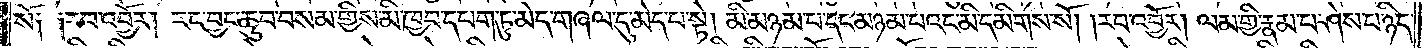སོ། །རབ་འབྱོར། རང་བྱང་ཆུབ་བསམ་གྱིས་མི་ཁྱབ་དཔག་ཏུ་མེད་གཞལ་དུ་མེད་པ་སྟེ། མི་མཉམ་པ་དང་མཉམ་པའང་མི་དམིགས་སོ། །རབ་འབྱོར། ལམ་གྱི་རྣམ་པ་ཤེས་པ་ཉིད་
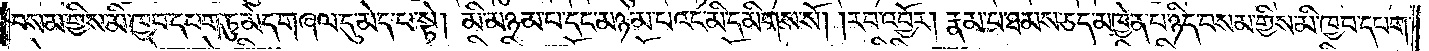བསམ་གྱིས་མི་ཁྱབ་དཔག་ཏུ་མེད་གཞལ་དུ་མེད་པ་སྟེ། མི་མཉམ་པ་དང་མཉམ་པའང་མི་དམིགས་སོ། །རབ་འབྱོར། རྣམ་པ་ཐམས་ཅད་མཁྱེན་པ་ཉིད་བསམ་གྱིས་མི་ཁྱབ་དཔག་
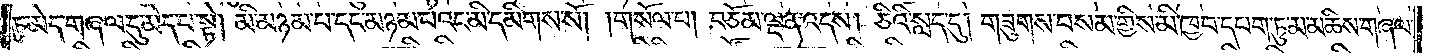ཏུ་མེད་གཞལ་དུ་མེད་པ་སྟེ། མི་མཉམ་པ་དང་མཉམ་པའང་མི་དམིགས་སོ། །གསོལ་པ། བཅོམ་ལྡན་འདས། ཅིའི་སླད་དུ། གཟུགས་བསམ་གྱིས་མི་ཁྱབ་དཔག་ཏུ་མ་མཆིས་གཞལ་
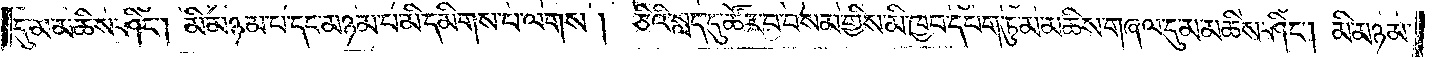དུ་མ་མཆིས་ཤིང༌། མི་མཉམ་པ་དང་མཉམ་པ་མི་དམིགས་པ་ལགས། ཅིའི་སླད་དུ་ཚོར་བ་བསམ་གྱིས་མི་ཁྱབ་དཔག་ཏུ་མ་མཆིས་གཞལ་དུ་མ་མཆིས་ཤིང༌། མི་མཉམ་
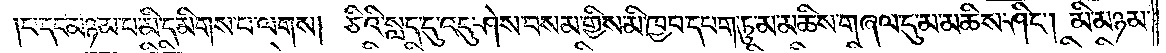པ་དང་མཉམ་པ་མི་དམིགས་པ་ལགས། ཅིའི་སླད་དུ་འདུ་ཤེས་བསམ་གྱིས་མི་ཁྱབ་དཔག་ཏུ་མ་མཆིས་གཞལ་དུ་མ་མཆིས་ཤིང༌། མི་མཉམ་
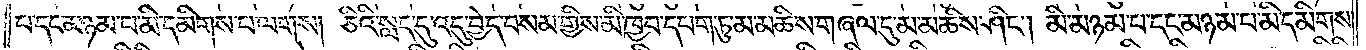པ་དང་མཉམ་པ་མི་དམིགས་པ་ལགས། ཅིའི་སླད་དུ་འདུ་བྱེད་བསམ་གྱིས་མི་ཁྱབ་དཔག་ཏུ་མ་མཆིས་གཞལ་དུ་མ་མཆིས་ཤིང༌། མི་མཉམ་པ་དང་མཉམ་པ་མི་དམིགས་
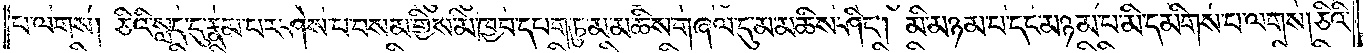པ་ལགས། ཅིའི་སླད་དུ་རྣམ་པར་ཤེས་པ་བསམ་གྱིས་མི་ཁྱབ་དཔག་ཏུ་མ་མཆིས་གཞལ་དུ་མ་མཆིས་ཤིང༌། མི་མཉམ་པ་དང་མཉམ་པ་མི་དམིགས་པ་ལགས། ཅིའི་
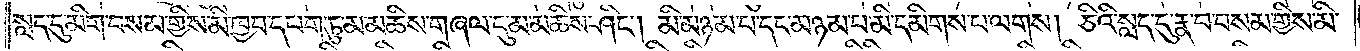སླད་དུ་མིག་བསམ་གྱིས་མི་ཁྱབ་དཔག་ཏུ་མ་མཆིས་གཞལ་དུ་མ་མཆིས་ཤིང༌། མི་མཉམ་པ་དང་མཉམ་པ་མི་དམིགས་པ་ལགས། ཅིའི་སླད་དུ་རྣ་བ་བསམ་གྱིས་མི་
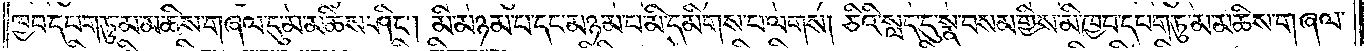ཁྱབ་དཔག་ཏུ་མ་མཆིས་གཞལ་དུ་མ་མཆིས་ཤིང༌། མི་མཉམ་པ་དང་མཉམ་པ་མི་དམིགས་པ་ལགས། ཅིའི་སླད་དུ་སྣ་བསམ་གྱིས་མི་ཁྱབ་དཔག་ཏུ་མ་མཆིས་གཞལ་
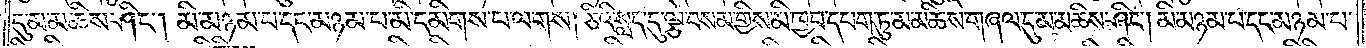དུ་མ་མཆིས་ཤིང༌། མི་མཉམ་པ་དང་མཉམ་པ་མི་དམིགས་པ་ལགས། ཅིའི་སླད་དུ་ལྕེ་བསམ་གྱིས་མི་ཁྱབ་དཔག་ཏུ་མ་མཆིས་གཞལ་དུ་མ་མཆིས་ཤིང༌། མི་མཉམ་པ་དང་མཉམ་པ་
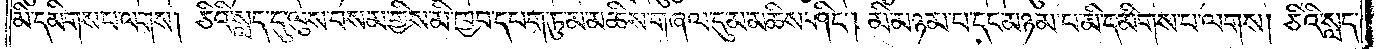མི་དམིགས་པ་ལགས། ཅིའི་སླད་དུ་ལུས་བསམ་གྱིས་མི་ཁྱབ་དཔག་ཏུ་མ་མཆིས་གཞལ་དུ་མ་མཆིས་ཤིང༌། མི་མཉམ་པ་དང་མཉམ་པ་མི་དམིགས་པ་ལགས། ཅིའི་སླད་
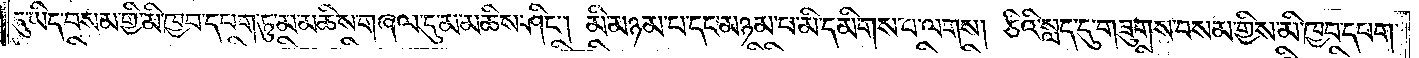དུ་ཡིད་བསམ་གྱི་མི་ཁྱབ་དཔག་ཏུ་མ་མཆིས་གཞལ་དུ་མ་མཆིས་ཤིང༌། མི་མཉམ་པ་དང་མཉམ་པ་མི་དམིགས་པ་ལགས། ཅིའི་སླད་དུ་གཟུགས་བསམ་གྱིས་མི་ཁྱབ་དཔག་
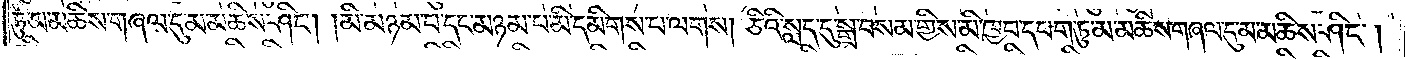ཏུ་མ་མཆིས་གཞལ་དུ་མ་མཆིས་ཤིང༌། མི་མཉམ་པ་དང་མཉམ་པ་མི་དམིགས་པ་ལགས། ཅིའི་སླད་དུ་སྒྲ་བསམ་གྱིས་མི་ཁྱབ་དཔག་ཏུ་མ་མཆིས་གཞལ་དུ་མ་མཆིས་ཤིང༌།
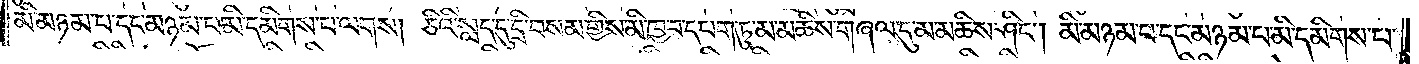མི་མཉམ་པ་དང་མཉམ་པ་མི་དམིགས་པ་ལགས། ཅིའི་སླད་དུ་དྲི་བསམ་གྱིས་མི་ཁྱབ་དཔག་ཏུ་མ་མཆིས་གཞལ་དུ་མ་མཆིས་ཤིང༌། མི་མཉམ་པ་དང་མཉམ་པ་མི་དམིགས་པ་
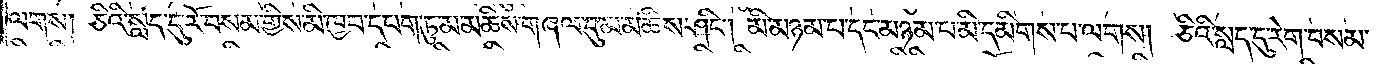ལགས། ཅིའི་སླད་དུ་རོ་བསམ་གྱིས་མི་ཁྱབ་དཔག་ཏུ་མ་མཆིས་གཞལ་དུ་མ་མཆིས་ཤིང༌། མི་མཉམ་པ་དང་མཉམ་པ་མི་དམིགས་པ་ལགས། ཅིའི་སླད་དུ་རེག་བསམ་
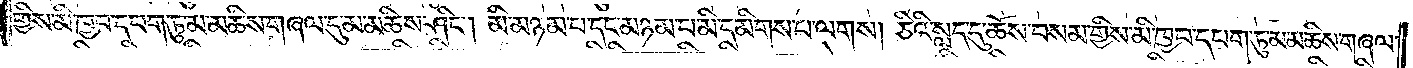གྱིས་མི་ཁྱབ་དཔག་ཏུ་མ་མཆིས་གཞལ་དུ་མ་མཆིས་ཤིང༌། མི་མཉམ་པ་དང་མཉམ་པ་མི་དམིགས་པ་ལགས། ཅིའི་སླད་དུ་ཆོས་བསམ་གྱིས་མི་ཁྱབ་དཔག་ཏུ་མ་མཆིས་གཞལ་
